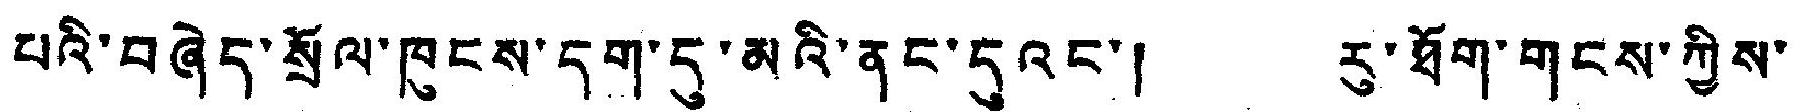པའི་བཞེད་སྲོལ་ཁུངས་དག་དུ་མའི་ནང་དུའང་། རུ་ཐོག་གངས་ཀྱིས་
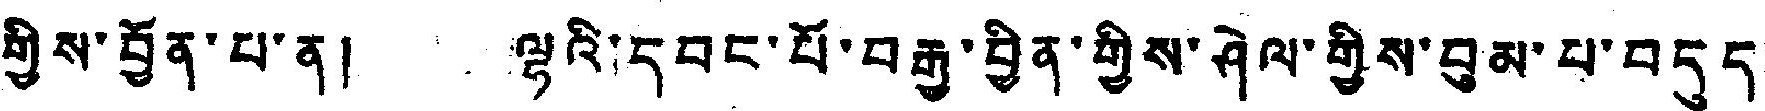གྱིས་བྱོན་པ་ན། ལྷའི་དབང་པོ་བརྒྱ་བྱིན་གྱིས་ཤེལ་གྱིས་བུམ་པ་བདུད་
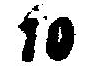10
